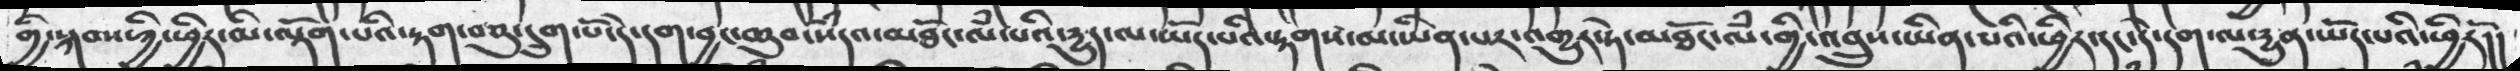གྱི་སྐབས་ཀྱི་ཕྱིར་མི་ལྡོག་པའི་རྟག་བཅུ་དྲུག་པོ་དེ་དག་བྱང་ཆུབ་སེཾདའ་མཐོང་ལཾ་པའི་དྱུད་ལ་ཡོད་པའི་རྟགས་མ་ཡིན་པར་འགྱུར་ཏེ་མཐོང་ལཾ་གྱི་འབྲུས་ཡིན་པའི་ཕྱིར་དང་དེ་དག་ལ་དྱུན་ཡོད་པའི་ཕྱིརོ།།
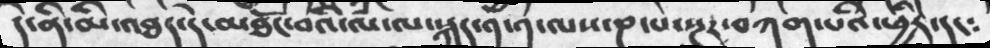དེ་ནི་མི་འཐད་དེ་མཐོང་བའི་ལྃ་ལ་སྐད་༡་༡་ལས་ཎ་པ་སྔར་བཀག་པའི་ཕྱིར་དང༴
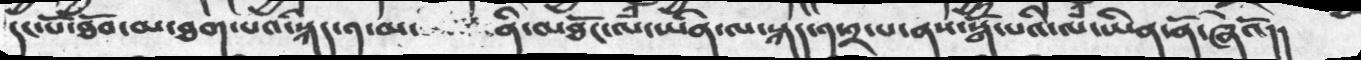དང་པོ་ཐོབ་མ་ཐག་པའི་སྐད་༡་མ་       ནི་མཐོང་ལཾ་ཡིན་ལ་སྐད་༡་༢་པ་ནས་སྒོཾ་པའི་ལཾ་ཡིན་ནོ་ཞེའོ།།
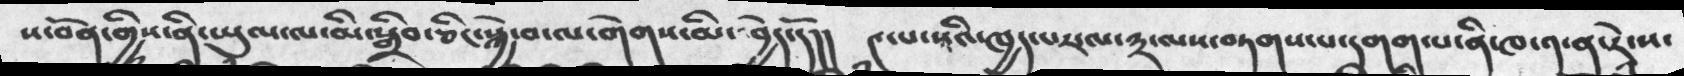ས་བོན་གྱིས་ནི་ཡུལ་ལ་མི་སྒྲིབ་ཅིང་སྐྱེ་བ་ལ་གེགས་མི་ བྱེད་དོ།།   ༤་པ་སའི་ཁྱད་པར་ལ་༣་ལས་བཏགས་པ་དགག་པ་ནི་ཁ༡་ན་རེ་ས་
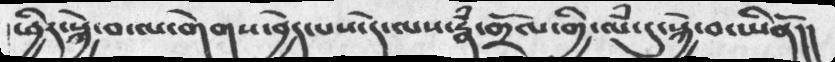ཕྱིར་སྐྱེ་བ་ལ་གེགས་བྱེད་པས་དེ་ལས་རྣཾ་གྲོལ་གྱི་ལཾ་དུ་སྐྱེ་བ་ཡིནོ།།
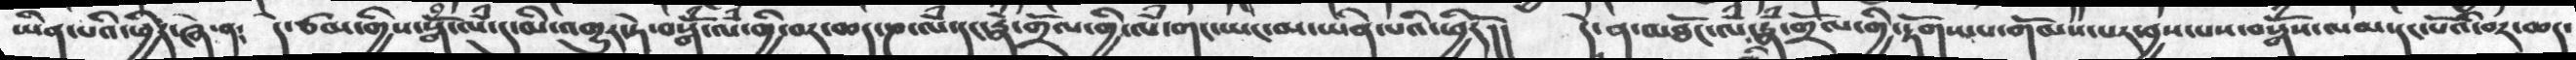ཡིན་པའི་ཕྱིར་ཞེ་ན༴   དེ་ཙམ་གྱིས་སྒོཾ་ལཾ་དུ་མི་འགྱུར་ཏེ་བསྒོཾ་ལཾ་གྱི་བར་ཆད་ཎ་ལཾ་དང་རྣཾ་གྲོལ་གྱི་ལཾ་གང་ཡང་མ་ཡིན་པའི་ཕྱིརོ།།  དེ་ན་མཐོང་ལཾ་རྣཾ་གྲོལ་གྱི་རྟོགས་པ་གོམས་པར་བྱས་པས་བསྒོཾས་ལམ་དང་པོའི་བར་ཆད་
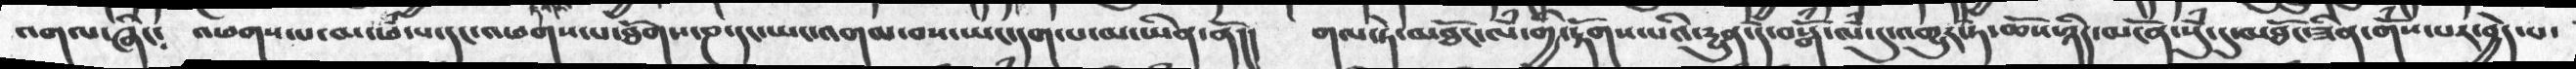འགལ་ཞིང༴  འཕགས་པ་མ་ཕཾ་པ་དང་འཕགས་པ་ཐོགས་ཎ་དང་ཡང་འགལ་བས་ཡང་དག་པ་མ་ཡིན་ནོ།།   གལ་ཏེ་མཐོང་ལཾ་གྱི་རྟོགས་པའི་དྱུན་དེ་བསྒོཾ་ལཾ་དུ་འགྱུར་ཏེ་ཆོས་ཉིད་མངོན་སུཾ་དུ་མཐོང་ཟིན་གོཾས་པར་བྱེད་པ་
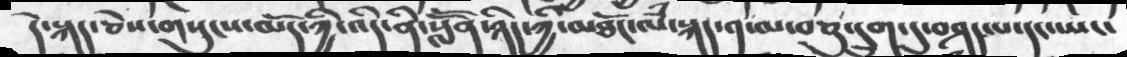དེ་སྐད་ཅེས་གསུངས་མོད་ཀྱི་འདི་ནི་སློོན་ཉིད་ཀྱི་མཐོང་ལཾ་སྐད་༡་མ་བཅུ་དྲུག་དུ་བཤད་པ་དང་ཡང་
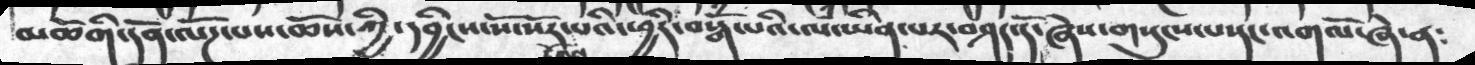མཆོག་གི་དོན་ལོཌ་པས་ཆོས་ཀྱི་དབྱིངས་སོ་སོར་རྟོགས་པའི་ཕྱིར་བསྒོཾ་པའི་ལཾ་ཡིན་པར་བཤད་དོ་ཞེས་གསུངས་པ་དང་འགལོ་ཞེ་ན༴
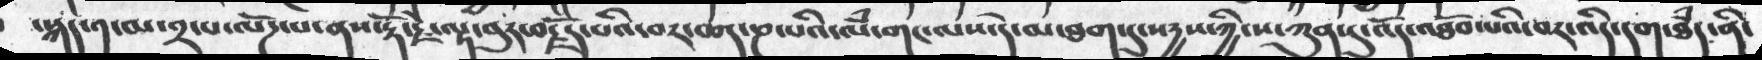་སྐད་༡་མ་༢་པ་ལོཌ་པ་ནས་རྡོ་རྗེ་ལྟ་བུར་བརྗོད་པའི་བར་ཆད་ཎ་པའི་ལཾ་གང་ལས་དེ་མ་ཐག་དུ་སདྱས་ཀྱི་ས་ཀུན་དུ་འོད་འཐོབ་པའི་བར་འདི་དག་ཐཾད་ནི་
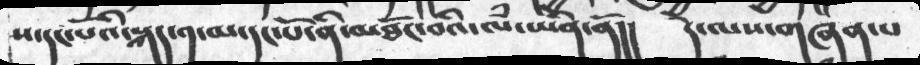ས་དང་པོའི་སྐད་༡་མ་དང་པོ་ནི་མཐོང་བའི་ལྃ་ཡིན་ནོ།།   དེ་ལས་གཞན་པ
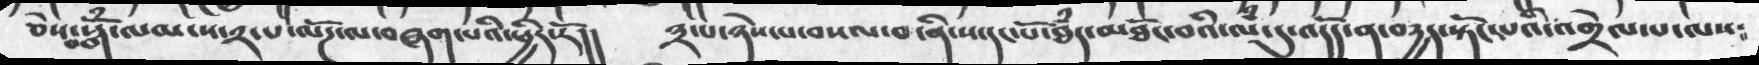ཅེས་བསྒོཾ་ལམ་ས་༢་པ་ལོཌ་ལ་བཞག་པའི་ཕྱིར་རོ།།   ༣་པ་ཉེས་པ་བསལ་བ་ནི་ས་དང་པོ་ཐཾད་མཐོང་བའི་ལཾ་དུ་འདོད་ན་བདྱད་སྟོང་པའི་འགྲེལ་པ་ལས༴
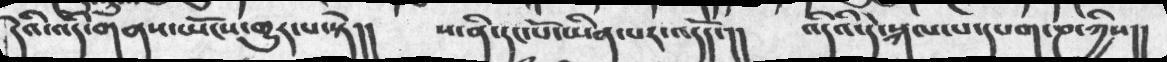དེའི་འདི་གནས་ཡོངས་གྱུར་པ་སྟེ།།   ས་ནི་དང་པོ་ཡིན་པར་འདོད་།།   འདིའི་དེ་སྐལ་པ་དཔག་ཎ་ཀྱིས།།
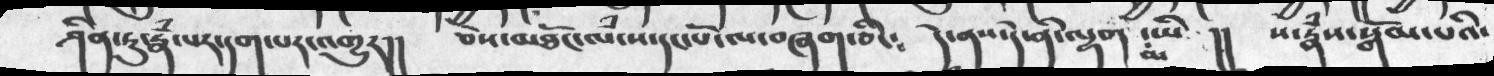ཤིན་ཏུ་རྣྃ་པར་དག་པར་འགྱུར།།   ཅེས་མཐོང་ལཾ་ས་དང་པོ་ལ་བཞག་ཅིང༴   དེ་ནས་དེ་ནི་ལྷག་མ་ཡིན   །།  ས་རྣཾས་སྒོམ་པའི་
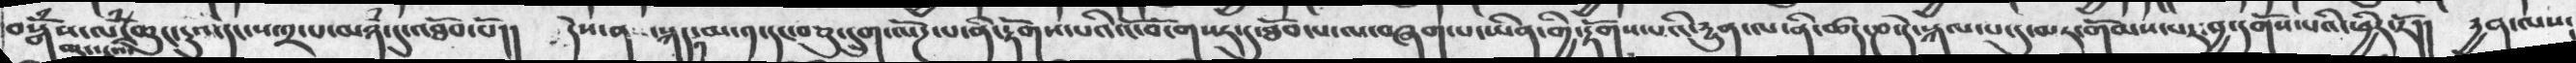བསྒོཾས་ལཾ་ཆུང་ངུའི་ཆུང་ངུའ་དང་ས་༢་པ་མཉཾ་དུ་འཐོབ་པོ།།   དེས་ན་  སྐད་༡་མ་༡་དང་བཅུ་དྲུག་ལོཌ་པ་ནི་རྟོགས་པའི་ངོ་བོ་གསར་དུ་ཐོབ་པ་ལ་བཞག་པ་ཡིན་གྱི་རྟོགས་པའི་དྱུན་ལ་ནི་ཚད་ཎ་དེ་སྐལ་པ་དུ་མར་གོམས་པར་བྱ་དགོས་པའི་ཕྱིར་རོ།།  དྱན་ལས༴
